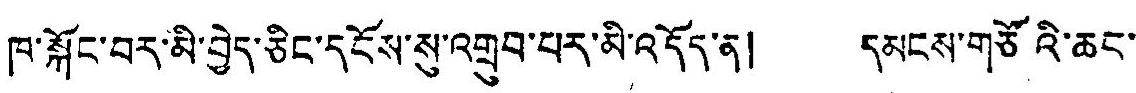ཁ་སྐྱོང་བར་མི་བྱེད་ཅིང་དངོས་སུ་འགྲུབ་པར་མི་འདོད་ན། དམངས་གཙོའི་ཆང་
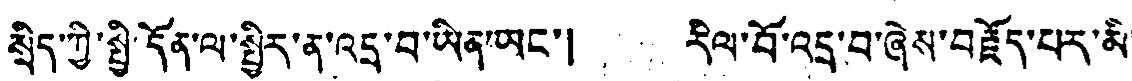སྲིད་ཀྱི་སྤྱི་དོན་ལ་སྤྱིར་ན་འདྲ་བ་ཡིན་ཡང་། རིལ་བོ་འདྲ་བ་ཞེས་བརྗོད་པར་མི་
